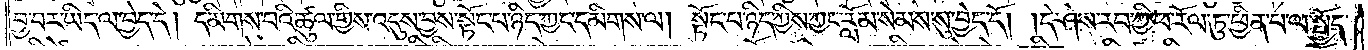བྱ་བར་ཡིད་ལ་བྱེད་དེ། དམིགས་པའི་ཚུལ་གྱིས་འདུས་བྱས་སྟོང་པ་ཉིད་ཀྱང་དམིགས་ལ། སྟོང་པ་ཉིད་ཀྱིས་ཀྱང་རློམ་སེམས་སུ་བྱེད་དོ། །དེ་ཤེས་རབ་ཀྱི་ཕ་རོལ་ཏུ་ཕྱིན་པ་ལ་སྤྱོད་
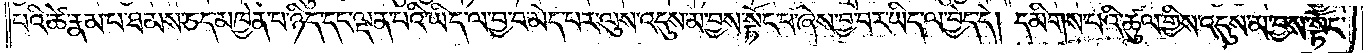པའི་ཚེ་རྣམ་པ་ཐམས་ཅད་མཁྱེན་པ་ཉིད་དང་ལྡན་པའི་ཡིད་ལ་བྱ་བ་མེད་པར་ལུས་འདུས་མ་བྱས་སྟོང་པ་ཞེས་བྱ་བར་ཡིད་ལ་བྱེད་དེ། དམིགས་པའི་ཚུལ་གྱིས་འདུས་མ་བྱས་སྟོང་
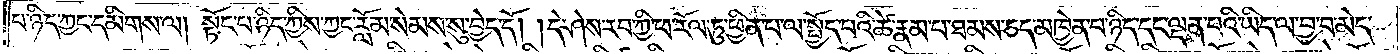བ་ཉིད་ཀྱང་དམིགས་ལ། སྟོང་པ་ཉིད་ཀྱིས་ཀྱང་རློམ་སེམས་སུ་བྱེད་དོ། །དེ་ཤེས་རབ་ཀྱི་ཕ་རོལ་ཏུ་ཕྱིན་པ་ལ་སྤྱོད་པའི་ཚེ་རྣམ་པ་ཐམས་ཅད་མཁྱེན་པ་ཉིད་དང་ལྡན་པའི་ཡིད་ལ་བྱ་བ་མེད་
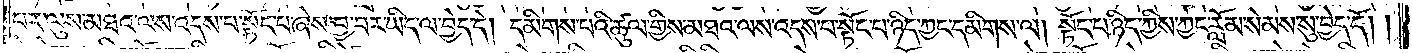པར་ལུས་མཐའ་ལས་འདས་པ་སྟོང་པ་ཞེས་བྱ་བར་ཡིད་ལ་བྱེད་དེ། དམིགས་པའི་ཚུལ་གྱིས་མཐའ་ལས་འདས་པ་སྟོང་པ་ཉིད་ཀྱང་དམིགས་ལ། སྟོང་པ་ཉིད་ཀྱིས་ཀྱང་རློམ་སེམས་སུ་བྱེད་དོ། །
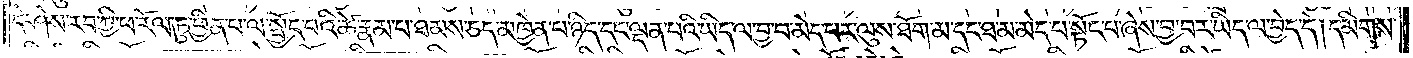དེ་ཤེས་རབ་ཀྱི་ཕ་རོལ་ཏུ་ཕྱིན་པ་ལ་སྤྱོད་པའི་ཚེ་རྣམ་པ་ཐམས་ཅད་མཁྱེན་པ་ཉིད་དང་ལྡན་པའི་ཡིད་ལ་བྱ་བ་མེད་པར་ལུས་ཐོག་མ་དང་ཐ་མ་མེད་པ་སྟོང་པ་ཞེས་བྱ་བར་ཡིད་ལ་བྱེད་དེ། དམིགས་
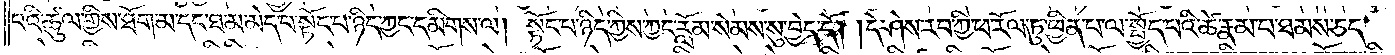པའི་ཚུལ་གྱིས་ཐོག་མ་དང་ཐ་མ་མེད་པ་སྟོང་པ་ཉིད་ཀྱང་དམིགས་ལ། སྟོང་པ་ཉིད་ཀྱིས་ཀྱང་རློམ་སེམས་སུ་བྱེད་དོ། །དེ་ཤེས་རབ་ཀྱི་ཕ་རོལ་ཏུ་ཕྱིན་པ་ལ་སྤྱོད་པའི་ཚེ་རྣམ་པ་ཐམས་ཅད་
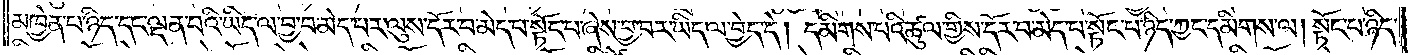མཁྱེན་པ་ཉིད་དང་ལྡན་པའི་ཡིད་ལ་བྱ་བ་མེད་པར་ལུས་དོར་བ་མེད་པ་སྟོང་པ་ཞེས་བྱ་བར་ཡིད་ལ་བྱེད་དེ། དམིགས་པའི་ཚུལ་གྱིས་དོར་བ་མེད་པ་སྟོང་པ་ཉིད་ཀྱང་དམིགས་ལ། སྟོང་པ་ཉིད་
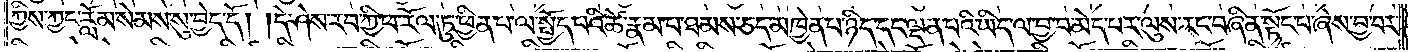ཀྱིས་ཀྱང་རློམ་སེམས་སུ་བྱེད་དོ། །དེ་ཤེས་རབ་ཀྱི་ཕ་རོལ་ཏུ་ཕྱིན་པ་ལ་སྤྱོད་པའི་ཚེ་རྣམ་པ་ཐམས་ཅད་མཁྱེན་པ་ཉིད་དང་ལྡན་པའི་ཡིད་ལ་བྱ་བ་མེད་པར་ལུས་རང་བཞིན་སྟོང་པ་ཞེས་བྱ་བར་
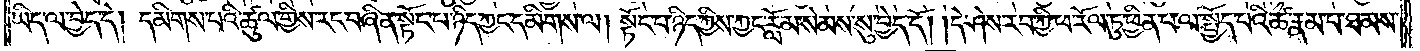ཡིད་ལ་བྱེད་དེ། དམིགས་པའི་ཚུལ་གྱིས་རང་བཞིན་སྟོང་པ་ཉིད་ཀྱང་དམིགས་ལ། སྟོང་པ་ཉིད་ཀྱིས་ཀྱང་རློམ་སེམས་སུ་བྱེད་དོ། །དེ་ཤེས་རབ་ཀྱི་ཕ་རོལ་ཏུ་ཕྱིན་པ་ལ་སྤྱོད་པའི་ཚེ་རྣམ་པ་ཐམས་
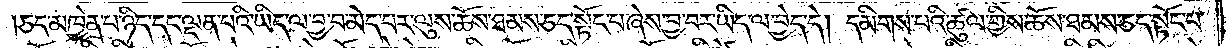ཅད་མཁྱེན་པ་ཉིད་དང་ལྡན་པའི་ཡིད་ལ་བྱ་བ་མེད་པར་ལུས་ཆོས་ཐམས་ཅད་སྟོང་པ་ཞེས་བྱ་བར་ཡིད་ལ་བྱེད་དེ། དམིགས་པའི་ཚུལ་གྱིས་ཆོས་ཐམས་ཅད་སྟོང་པ་
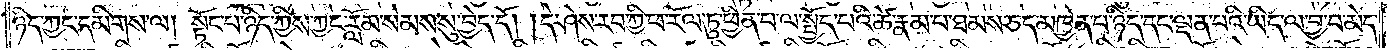ཉིད་ཀྱང་དམིགས་ལ། སྟོང་པ་ཉིད་ཀྱིས་ཀྱང་རློམ་སེམས་སུ་བྱེད་དོ། །དེ་ཤེས་རབ་ཀྱི་ཕ་རོལ་ཏུ་ཕྱིན་པ་ལ་སྤྱོད་པའི་ཚེ་རྣམ་པ་ཐམས་ཅད་མཁྱེན་པ་ཉིད་དང་ལྡན་པའི་ཡིད་ལ་བྱ་བ་མེད་
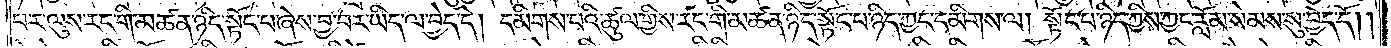པར་ལུས་རང་གི་མཚན་ཉིད་སྟོང་པ་ཞེས་བྱ་བར་ཡིད་ལ་བྱེད་དེ། དམིགས་པའི་ཚུལ་གྱིས་རང་གི་མཚན་ཉིད་སྟོང་པ་ཉིད་ཀྱང་དམིགས་ལ། སྟོང་པ་ཉིད་ཀྱིས་ཀྱང་རློམ་སེམས་སུ་བྱེད་དོ༎
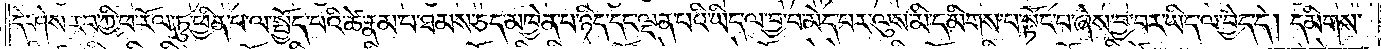དེ་ཤེས་རབ་ཀྱི་ཕ་རོལ་ཏུ་ཕྱིན་པ་ལ་སྤྱོད་པའི་ཚེ་རྣམ་པ་ཐམས་ཅད་མཁྱེན་པ་ཉིད་དང་ལྡན་པའི་ཡིད་ལ་བྱ་བ་མེད་པར་ལུས་མི་དམིགས་པ་སྟོང་པ་ཞེས་བྱ་བར་ཡིད་ལ་བྱེད་དེ། དམིགས་
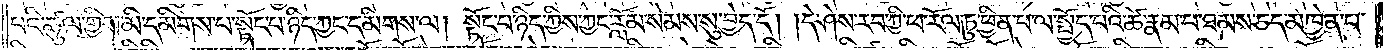པའི་ཚུལ་གྱིས་མི་དམིགས་པ་སྟོང་པ་ཉིད་ཀྱང་དམིགས་ལ། སྟོང་པ་ཉིད་ཀྱིས་ཀྱང་རློམ་སེམས་སུ་བྱེད་དོ། །དེ་ཤེས་རབ་ཀྱི་ཕ་རོལ་ཏུ་ཕྱིན་པ་ལ་སྤྱོད་པའི་ཚེ་རྣམ་པ་ཐམས་ཅད་མཁྱེན་པ་
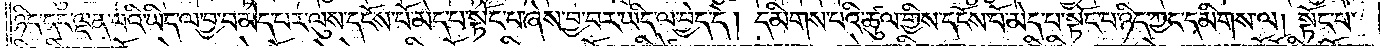ཉིད་དང་ལྡན་པའི་ཡིད་ལ་བྱ་བ་མེད་པར་ལུས་དངོས་པོ་མེད་པ་སྟོང་པ་ཞེས་བྱ་བར་ཡིད་ལ་བྱེད་དེ། དམིགས་པའི་ཚུལ་གྱིས་དངོས་པོ་མེད་པ་སྟོང་པ་ཉིད་ཀྱང་དམིགས་ལ། སྟོང་པ་
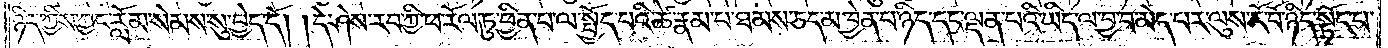ཉིད་ཀྱིས་ཀྱང་རློམ་སེམས་སུ་བྱེད་དོ། །དེ་ཤེས་རབ་ཀྱི་ཕ་རོལ་ཏུ་ཕྱིན་པ་ལ་སྤྱོད་པའི་ཚེ་རྣམ་པ་ཐམས་ཅད་མཁྱེན་པ་ཉིད་དང་ལྡན་པའི་ཡིད་ལ་བྱ་བ་མེད་པར་ལུས་ངོ་བོ་ཉིད་སྟོང་པ་
